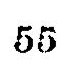55
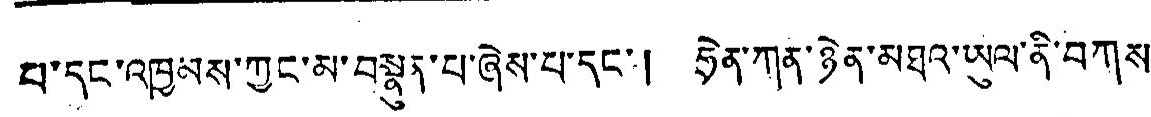པ་དང་འཁྱམས་ཀྱང་མ་བསྣུན་པ་ཞེས་པ་དང་། ཧྲེན་ཀུན་ཉེན་མཐའ་ཡུལ་ནི་བཀས་
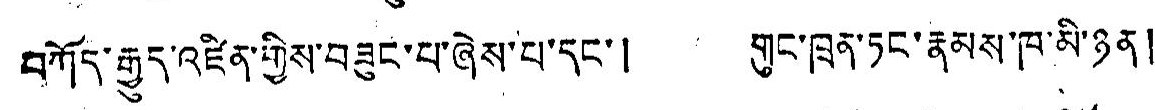བཀོད་རྒྱུད་འཛིན་གྱིས་བཟུང་པ་ཞེས་པ་དང་། གུང་ཁྲན་ཏང་རྣམས་ཁ་མི་ཉན།
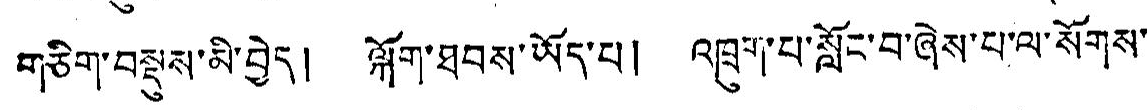གཅིག་བསྡུས་མི་བྱེད། ལྐོག་ཐབས་ཡོད་པ། འཁྲུག་པ་སློང་བ་ཞེས་པ་ལ་སོགས་
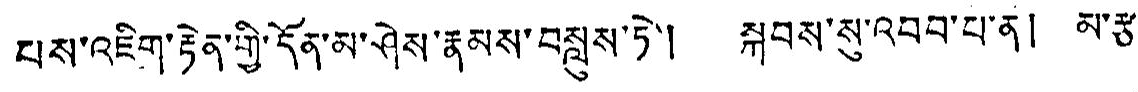པས་འཇིག་རྟེན་གྱི་དོན་མ་ཤེས་རྣམས་བསླུས་ཏེ་། སྐབས་སུ་འབབ་པ་ན། མ་རྩ་
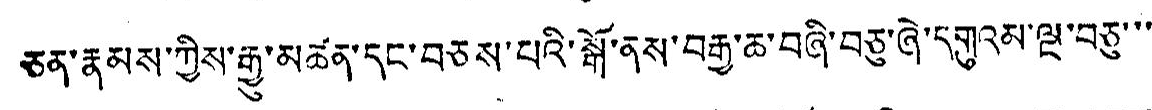ཅན་རྣམས་ཀྱིས་རྒྱུ་མཚན་དང་བཅས་པའི་སྒོ་ནས་བརྒྱ་ཆ་བཞི་བཅུ་ཞེ་དགུའམ་ལྔ་བཅུ་་་་
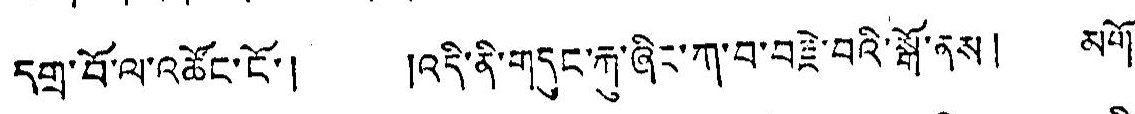དགྲ་བོ་ལ་འཚོང་ངོ་། །འདི་ནི་གདུང་རྐུ་ཞིང་ཀ་བ་བརྗེ་བའི་སྒོ་ནས། མགོ་
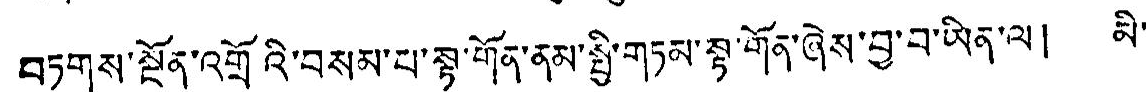བཏགས་སྔོན་འགྲོའི་བསམ་པ་སྟ་གོན་ནམ་སྤྱི་གཏམ་སྟ་གོན་ཞེས་བྱ་བ་ཡིན་ལ། མི་
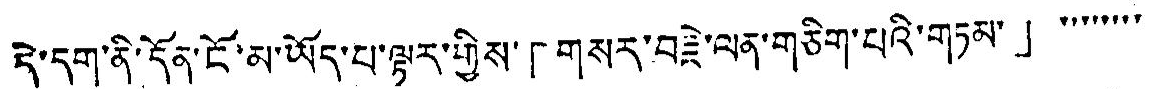དེ་དག་ནི་དོན་ངོ་མ་ཡོད་པ་ལྟར་གྱིས་「གསར་བརྗེ་ལན་གཅིག་པའི་གཏམ་」་་་་་་་་
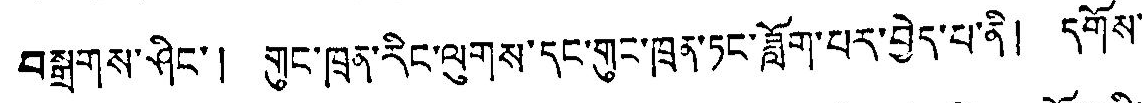བསྒྲགས་ཤིང་། གུང་ཁྲན་རིང་ལུགས་དང་གུང་ཁྲན་ཏང་ཟློག་པར་བྱེད་པ་ནི། དགོས་
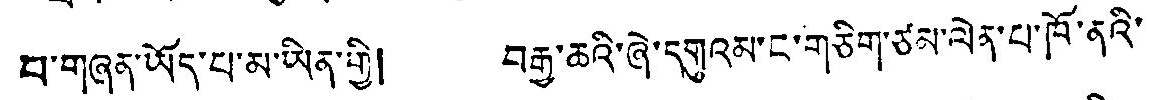བ་གཞན་ཡོད་པ་མ་ཡིན་གྱི། བརྒྱ་ཆའི་ཞེ་དགུའམ་ང་གཅིག་ཙམ་ལེན་པ་ཁོ་ནའི་
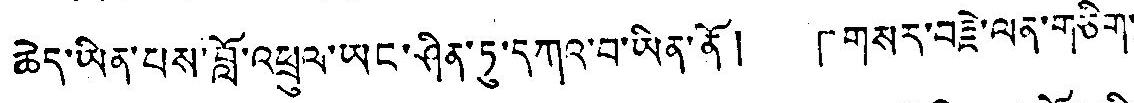ཆེད་ཡིན་པས་བློ་འཕྲུལ་ཡང་ཤིན་ཏུ་དཀའ་བ་ཡིན་ནོ། 「གསར་བརྗེ་ལན་གཅིག་
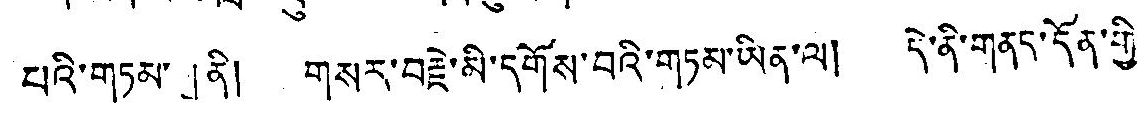པའི་གཏམ་」ནི། གསར་བརྗེ་མི་དགོས་བའི་གཏམ་ཡིན་ལ། དེ་ནི་གནད་དོན་གྱི་
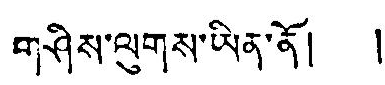གཤིས་ལུགས་ཡིན་ནོ། །
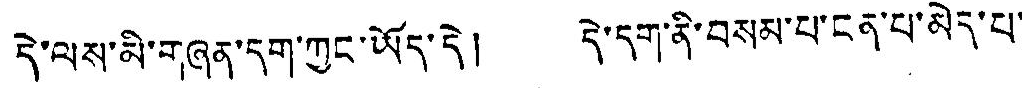དེ་ལས་མི་གཞན་དག་ཀྱང་ཡོད་དེ། དེ་དག་ནི་བསམ་པ་ངན་པ་མེད་པ་
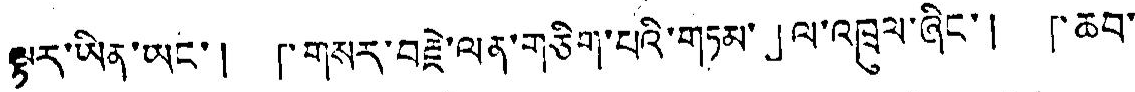སྟར་ཡིན་ཡང་། 「གསར་བརྗེ་ལན་གཅིག་པའི་གཏམ་」ལ་འཁྲུལ་ཞིང་། 「ཆབ་
